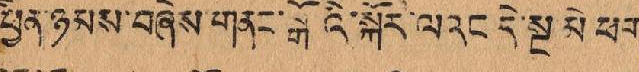ཕྱིན་ཉམས་བཞེས་གནང་སྒོའི་སྐོར་ལའང དེ་སྔ་མེ ཕག་
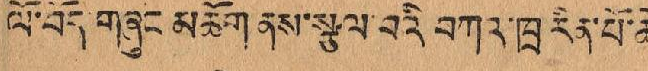ལོ་བོད་གཞུང མཆོག ནས་རྩལ་བའི བཀའ་ཁྲ རིན་པོ་ཆེ་
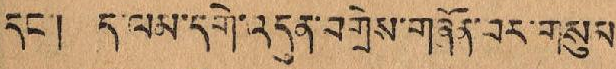དང་། ད་ལམ་དགེ་འདུན་བགྲེས་གཞོན་བར་གསུམ།
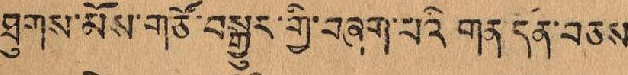ཐུགས་མོས་གཙོ་བསྒྱུར་གྱི་བཞག་པའི གན དོན་བཅས་
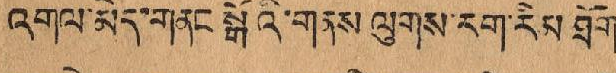འགལ་མེད་གནང་སྒོའི་གནས ལུགས་རག་རིམ་ཐོག་
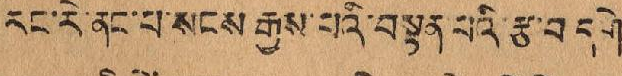རང་རེ་ནང་པ་སངས་རྒྱས་པའི་བསྟན་པའི་རྩ་བ་དགེ་
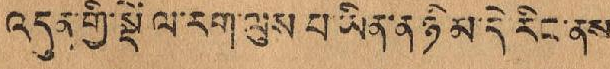འདུན་གྱི་སྡེ་ལ་རག་ལུས པ་ཡིན་ན ཉི་མ་དེ རེང་ནས་
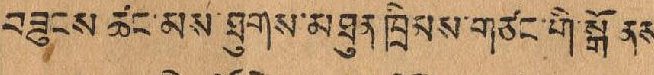བཟུངས་ཚང་མས་ཐུགས་མཐུན་ཁྲིམས་གཙང་གི་སྒོ ནས་
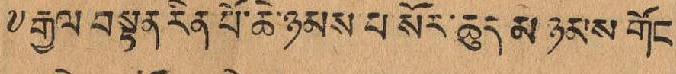༸རྒྱལ་བསྟན་རིན་པོ་ཆེ་ཉམས་པ སོར་ཆུད་མ་ཉམས གོང་
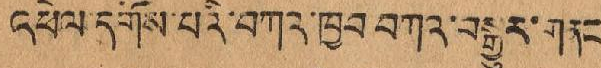འཕེལ་དགོས་པའི་བཀའ་ཁྱབ་བཀའ་བསྒྱུར་གནང་
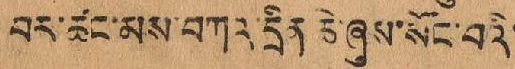བར་ཚང་མས་བཀའ་དྲིན་ཆེ་ཞུས་སོང་བའི་
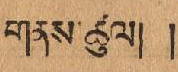གནས་ཚུལ། །
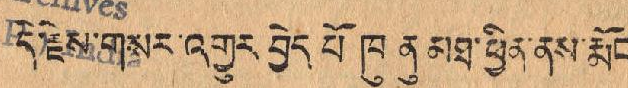དེ་རྗེས་གསང་འགྱུར་བྱེད་པོ་ཁུ ནུ མཐ་ཕྱིན་ནས་རྨོང་
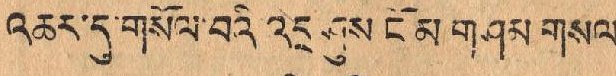འཆར་དུ་གསོལ་བའི་འདྲ་ཤུས་ངོ་མ་གཤམ་གསལ་
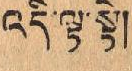འདི་ལྟ་སྟེ།
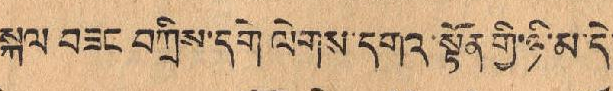སྐལ་བཟང་བཀྲིས་དགེ་ལེགས་དགའ་སྟོན་གྱི་ཉི་མ་དེ་
